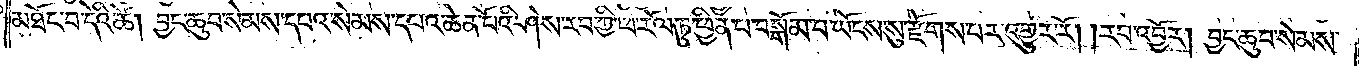མཐོང་བ་དེའི་ཚེ། བྱང་ཆུབ་སེམས་དཔའ་སེམས་དཔའ་ཆེན་པོའི་ཤེས་རབ་ཀྱི་ཕ་རོལ་ཏུ་ཕྱིན་པ་བསྒོམ་པ་ཡོངས་སུ་རྫོགས་པར་འགྱུར་རོ། །རབ་འབྱོར། བྱང་ཆུབ་སེམས་
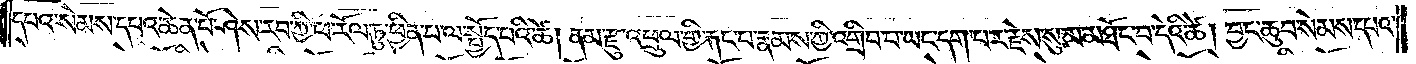དཔའ་སེམས་དཔའ་ཆེན་པོ་ཤེས་རབ་ཀྱི་ཕ་རོལ་ཏུ་ཕྱིན་པ་ལ་སྤྱོད་པའི་ཚེ། ནམ་རྫུ་འཕྲུལ་གྱི་རྐང་པ་རྣམས་ཀྱི་འགྲིབ་པ་ཡང་དག་པར་རྗེས་སུ་མ་མཐོང་བ་དེའི་ཚེ། བྱང་ཆུབ་སེམས་དཔའ་
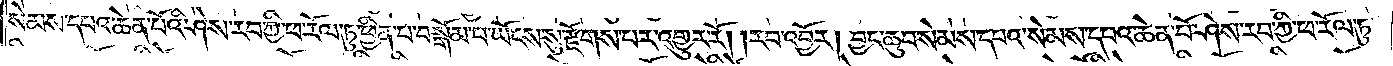སེམས་དཔའ་ཆེན་པོའི་ཤེས་རབ་ཀྱི་ཕ་རོལ་ཏུ་ཕྱིན་པ་བསྒོམ་པ་ཡོངས་སུ་རྫོགས་པར་འགྱུར་རོ། །རབ་འབྱོར། བྱང་ཆུབ་སེམས་དཔའ་སེམས་དཔའ་ཆེན་པོ་ཤེས་རབ་ཀྱི་ཕ་རོལ་ཏུ་
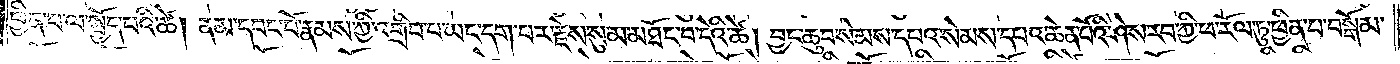ཕྱིན་པ་ལ་སྤྱོད་པའི་ཚེ། ནམ་དབང་པོ་རྣམས་ཀྱི་འགྲིབ་པ་ཡང་དག་པར་རྗེས་སུ་མ་མཐོང་བ་དེའི་ཚེ། བྱང་ཆུབ་སེམས་དཔའ་སེམས་དཔའ་ཆེན་པོའི་ཤེས་རབ་ཀྱི་ཕ་རོལ་ཏུ་ཕྱིན་པ་བསྒོམ་
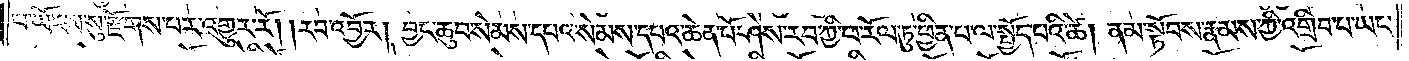པ་ཡོངས་སུ་རྫོགས་པར་འགྱུར་རོ། །རབ་འབྱོར། བྱང་ཆུབ་སེམས་དཔའ་སེམས་དཔའ་ཆེན་པོ་ཤེས་རབ་ཀྱི་ཕ་རོལ་ཏུ་ཕྱིན་པ་ལ་སྤྱོད་པའི་ཚེ། ནམ་སྟོབས་རྣམས་ཀྱི་འགྲིབ་པ་ཡང་
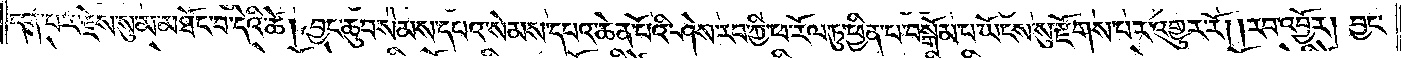དག་པར་རྗེས་སུ་མ་མཐོང་བ་དེའི་ཚེ། བྱང་ཆུབ་སེམས་དཔའ་སེམས་དཔའ་ཆེན་པོའི་ཤེས་རབ་ཀྱི་ཕ་རོལ་ཏུ་ཕྱིན་པ་བསྒོམ་པ་ཡོངས་སུ་རྫོགས་པར་འགྱུར་རོ། །རབ་འབྱོར། བྱང་
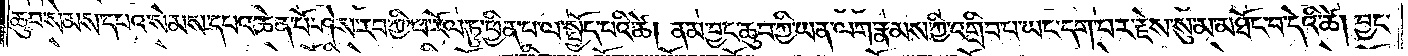ཆུབ་སེམས་དཔའ་སེམས་དཔའ་ཆེན་པོ་ཤེས་རབ་ཀྱི་ཕ་རོལ་ཏུ་ཕྱིན་པ་ལ་སྤྱོད་པའི་ཚེ། ནམ་བྱང་ཆུབ་ཀྱི་ཡན་ལག་རྣམས་ཀྱི་འགྲིབ་པ་ཡང་དག་པར་རྗེས་སུ་མ་མཐོང་བ་དེའི་ཚེ། བྱང་
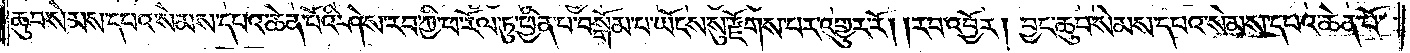ཆུབ་སེམས་དཔའ་སེམས་དཔའ་ཆེན་པོའི་ཤེས་རབ་ཀྱི་ཕ་རོལ་ཏུ་ཕྱིན་པ་བསྒོམ་པ་ཡོངས་སུ་རྫོགས་པར་འགྱུར་རོ། །རབ་འབྱོར། བྱང་ཆུབ་སེམས་དཔའ་སེམས་དཔའ་ཆེན་པོ་
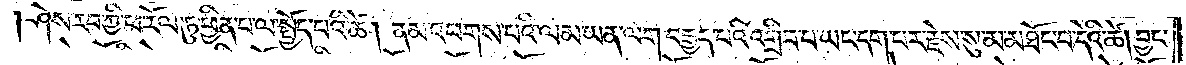ཤེས་རབ་ཀྱི་ཕ་རོལ་ཏུ་ཕྱིན་པ་ལ་སྤྱོད་པའི་ཚེ། ནམ་འཕགས་པའི་ལམ་ཡན་ལག་བརྒྱད་པའི་འགྲིབ་པ་ཡང་དག་པར་རྗེས་སུ་མ་མཐོང་བ་དེའི་ཚེ། བྱང་
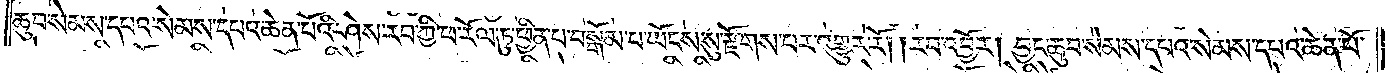ཆུབ་སེམས་དཔའ་སེམས་དཔའ་ཆེན་པོའི་ཤེས་རབ་ཀྱི་ཕ་རོལ་ཏུ་ཕྱིན་པ་བསྒོམ་པ་ཡོངས་སུ་རྫོགས་པར་འགྱུར་རོ། །རབ་འབྱོར། བྱང་ཆུབ་སེམས་དཔའ་སེམས་དཔའ་ཆེན་པོ་
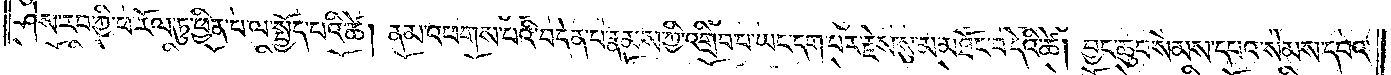ཤེས་རབ་ཀྱི་ཕ་རོལ་ཏུ་ཕྱིན་པ་ལ་སྤྱོད་པའི་ཚེ། ནམ་འཕགས་པའི་བདེན་པ་རྣམས་ཀྱི་འགྲིབ་པ་ཡང་དག་པར་རྗེས་སུ་མ་མཐོང་བ་དེའི་ཚེ། བྱང་ཆུབ་སེམས་དཔའ་སེམས་དཔའ་
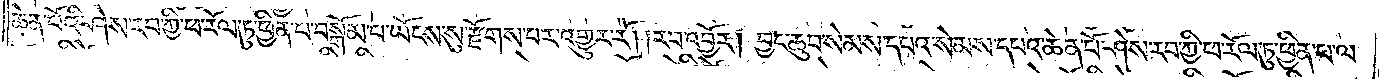ཆེན་པོའི་ཤེས་རབ་ཀྱི་ཕ་རོལ་ཏུ་ཕྱིན་པ་བསྒོམ་པ་ཡོངས་སུ་རྫོགས་པར་འགྱུར་རོ། །རབ་འབྱོར། བྱང་ཆུབ་སེམས་དཔའ་སེམས་དཔའ་ཆེན་པོ་ཤེས་རབ་ཀྱི་ཕ་རོལ་ཏུ་ཕྱིན་པ་ལ་
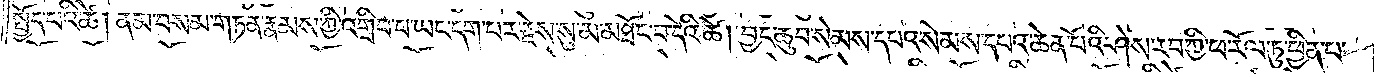སྤྱོད་པའི་ཚེ། ནམ་བསམ་གཏན་རྣམས་ཀྱི་འགྲིབ་པ་ཡང་དག་པར་རྗེས་སུ་མ་མཐོང་བ་དེའི་ཚེ། བྱང་ཆུབ་སེམས་དཔའ་སེམས་དཔའ་ཆེན་པོའི་ཤེས་རབ་ཀྱི་ཕ་རོལ་ཏུ་ཕྱིན་པ་
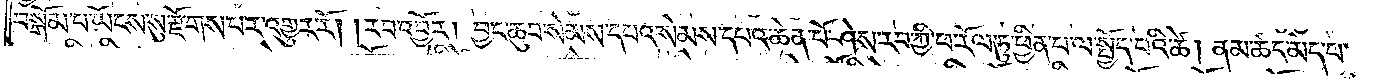བསྒོམ་པ་ཡོངས་སུ་རྫོགས་པར་འགྱུར་རོ། །རབ་འབྱོར། བྱང་ཆུབ་སེམས་དཔའ་སེམས་དཔའ་ཆེན་པོ་ཤེས་རབ་ཀྱི་ཕ་རོལ་ཏུ་ཕྱིན་པ་ལ་སྤྱོད་པའི་ཚེ། ནམ་ཚད་མེད་པ་
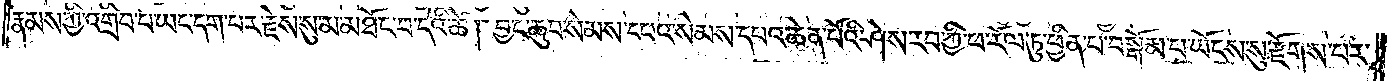རྣམས་ཀྱི་འགྲིབ་པ་ཡང་དག་པར་རྗེས་སུ་མ་མཐོང་བ་དེའི་ཚེ། བྱང་ཆུབ་སེམས་དཔའ་སེམས་དཔའ་ཆེན་པོའི་ཤེས་རབ་ཀྱི་ཕ་རོལ་ཏུ་ཕྱིན་པ་བསྒོམ་པ་ཡོངས་སུ་རྫོགས་པར་
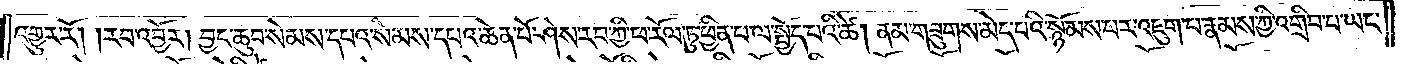འགྱུར་རོ། །རབ་འབྱོར། བྱང་ཆུབ་སེམས་དཔའ་སེམས་དཔའ་ཆེན་པོ་ཤེས་རབ་ཀྱི་ཕ་རོལ་ཏུ་ཕྱིན་པ་ལ་སྤྱོད་པའི་ཚེ། ནམ་གཟུགས་མེད་པའི་སྙོམས་པར་འཇུག་པ་རྣམས་ཀྱི་འགྲིབ་པ་ཡང་
